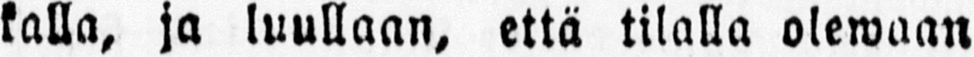kalla, ja luullaan, että tilalla olewaan
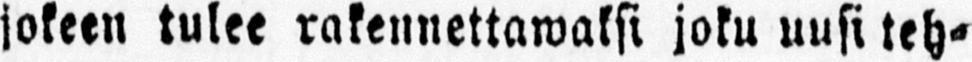jokeen tulee rakennettawaksi joku uusi teh-
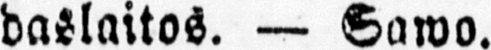daslaitos. — Sawo.
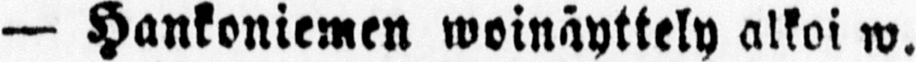— Hankoniemen woinäyttely alkoi w.
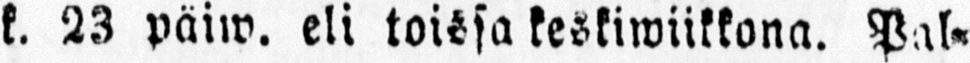k. 23 päiw. eli toissa keskiwiikkona. Pal-
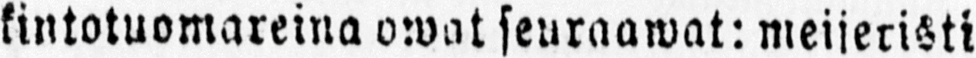kintotuomareina owat seuraawat: meijeristi
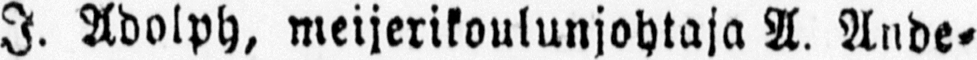I. Adolph, meijerikoulunjohtaja A. Ande-
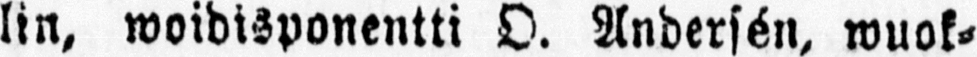lin, woidisponentti O. Andersén, wuok-
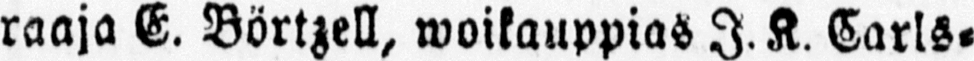raaja E. Börtzell, woikauppias J.K. Carls-
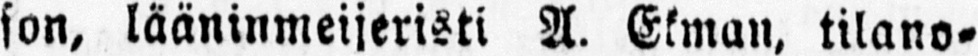son, lääninmeijeristi A. Ekman, tilano-
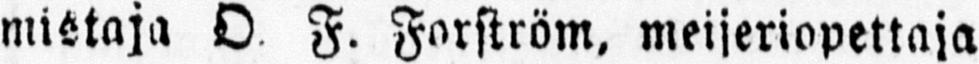mistaja O F. Farström. meijeriopettaja
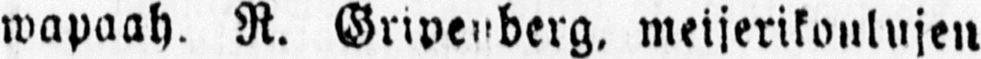wapaah. R. Gripenberg. meijerikoulujen
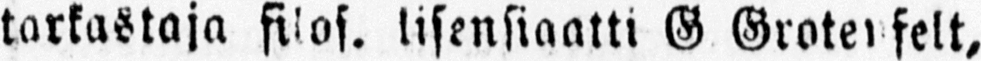tarkastaja filos. lisensiaatti G Grotenfelt,
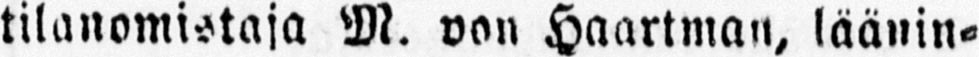tilanomistaja M. von Haartman, läänin-
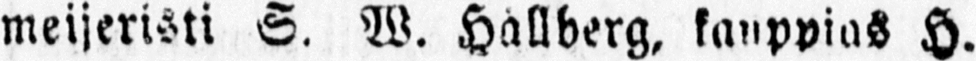meijeristi S. W. Hallberg, kanppias H.
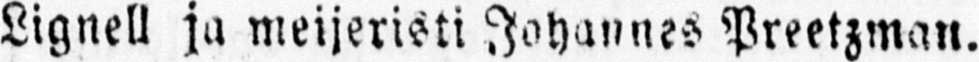Lignell ja meijeristi Johannes Preetzman.
